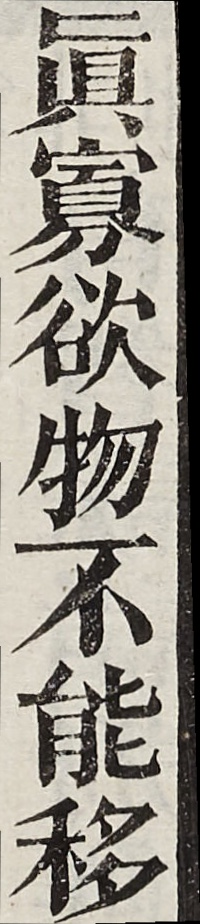寡欲物不能移
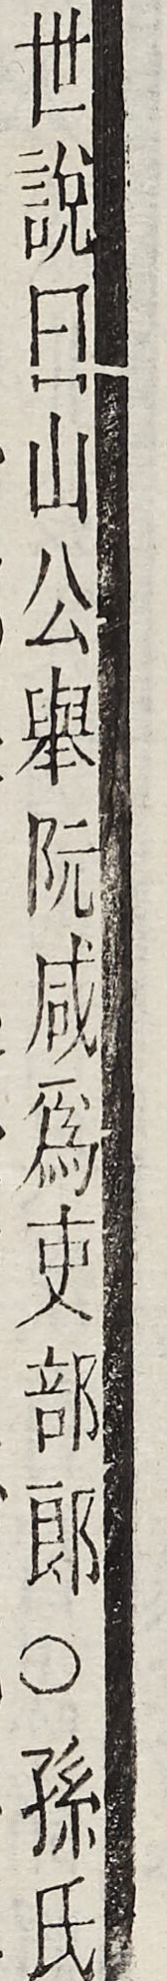世說曰山公舉阮咸為吏部郎○孫氏
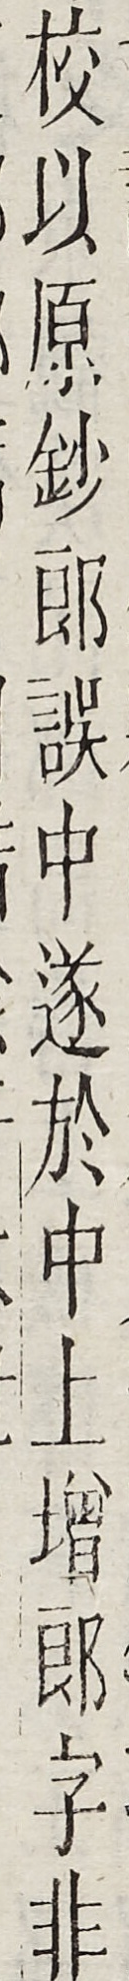校以原鈔□誤中遂於中上增郎字非
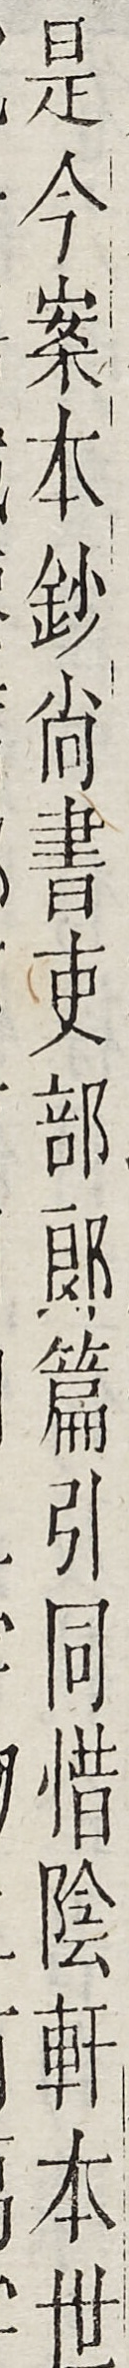是今案本鈔尚書吏部郎篇引同惜陰軒本世
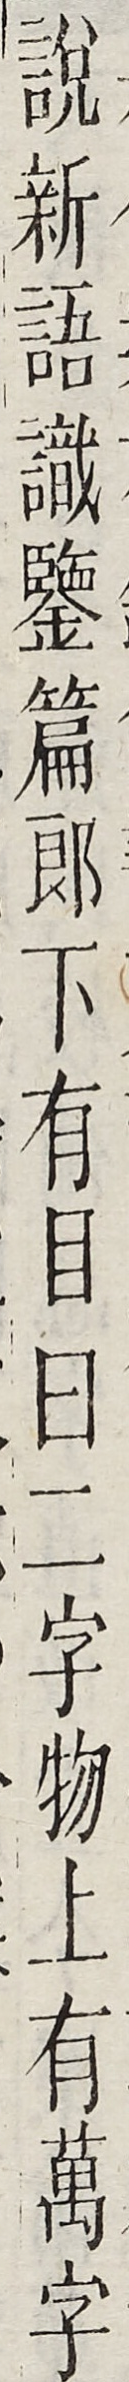說新語識鑒篇郎下有目曰二字物上有萬字
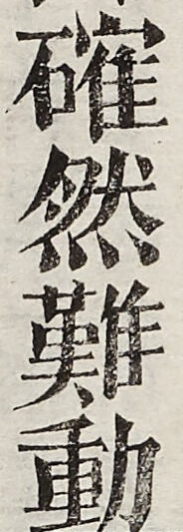確然難動
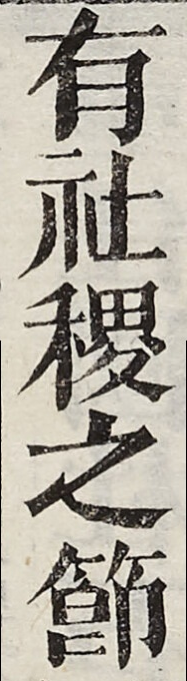有社稷之節
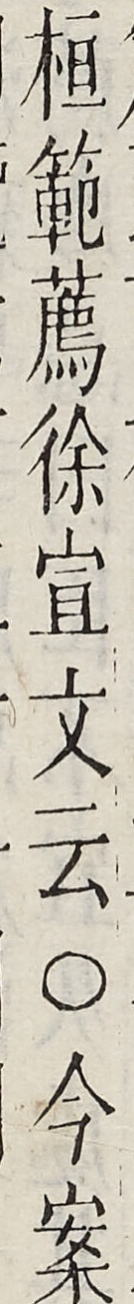桓範薦徐宣文云○今案
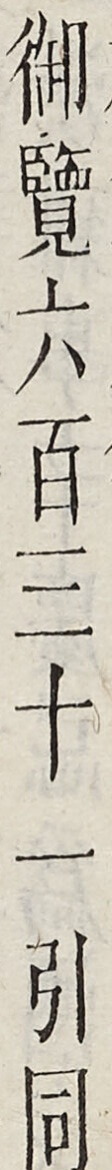御覽六百三十一引同
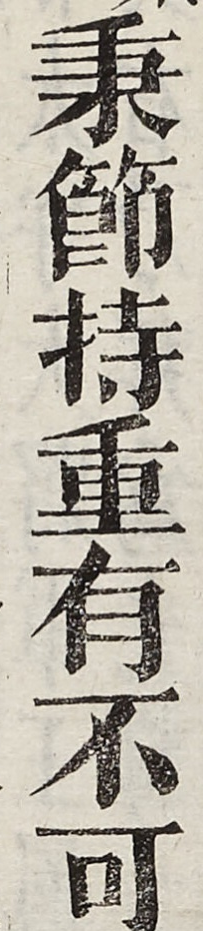秉節持重有不可
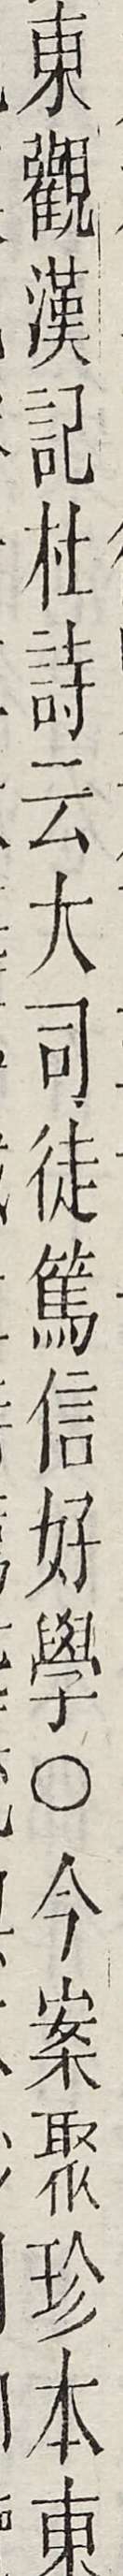東觀漢記杜詩云大司徒篤信好學○今案聚珍本東
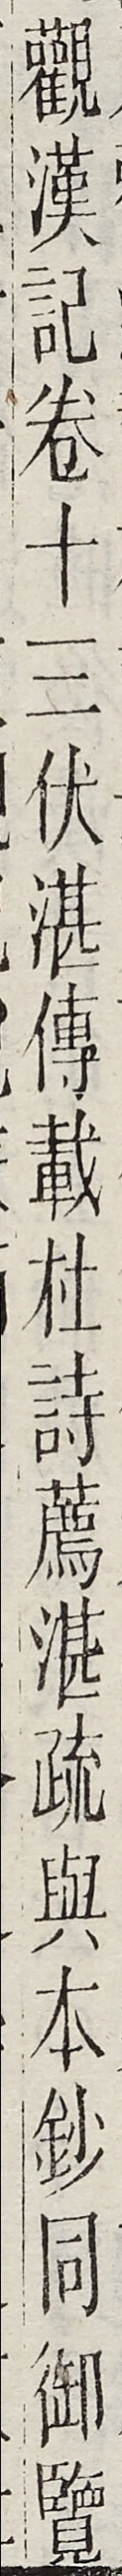觀漢記卷十三伏湛傳載杜詩薦湛流與本鈔同御覽
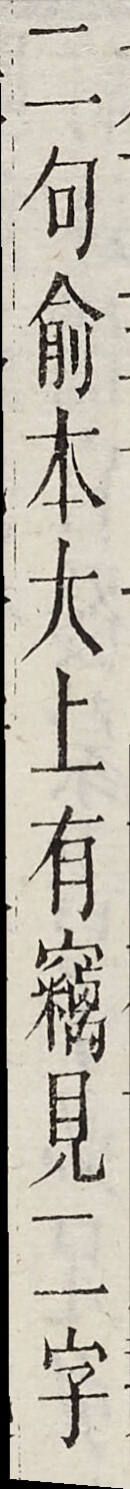二句俞本大上有竊見二字
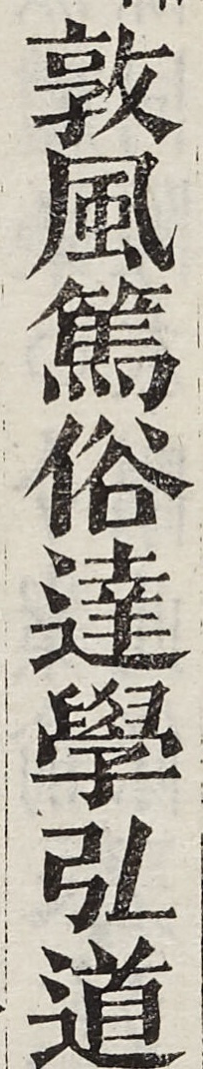敦風篤俗達學弘道
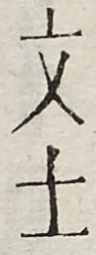又士
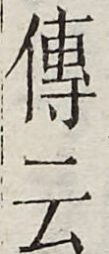傳云
